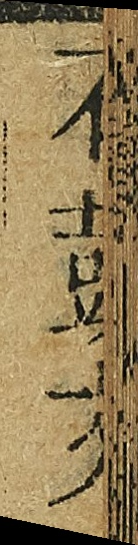石鼓文
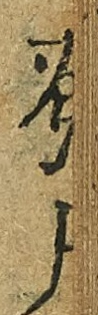發凡
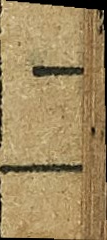二
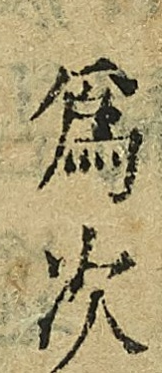爲次
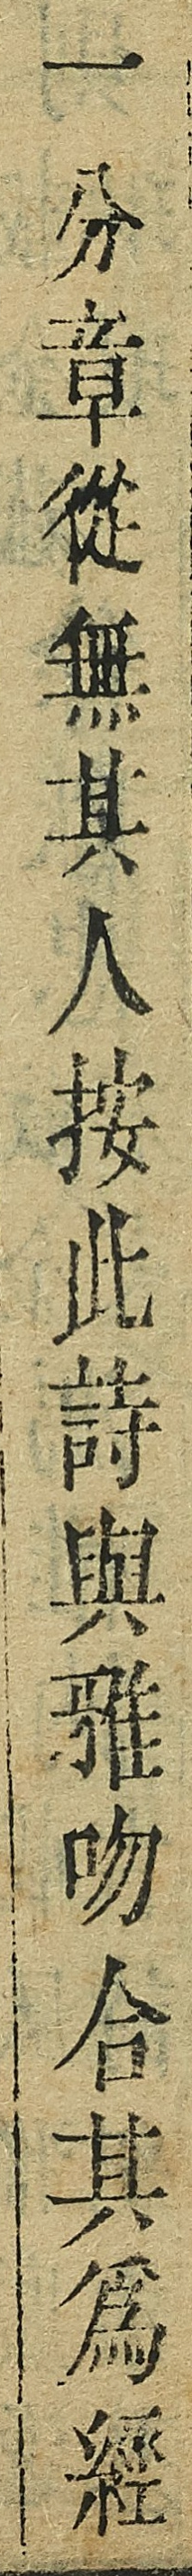一分章從無其人按此詩與雅吻合其爲經
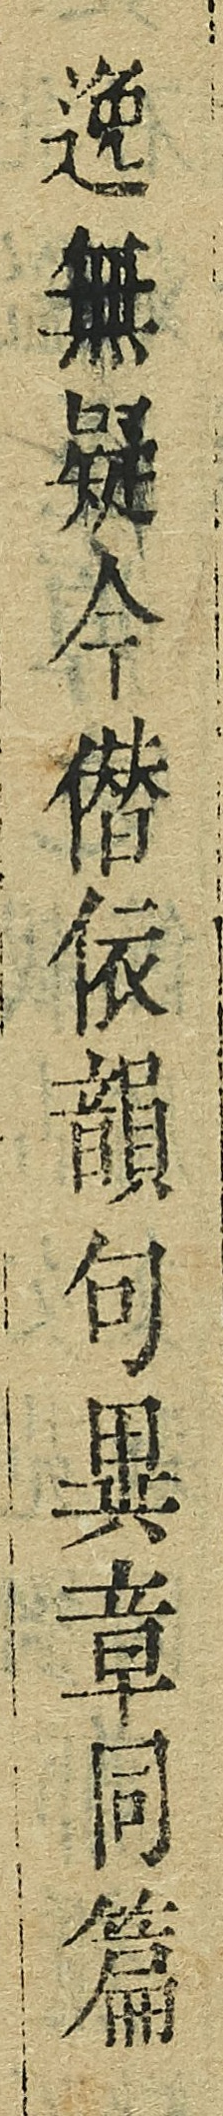逸無疑今僭依韻句異章同篇
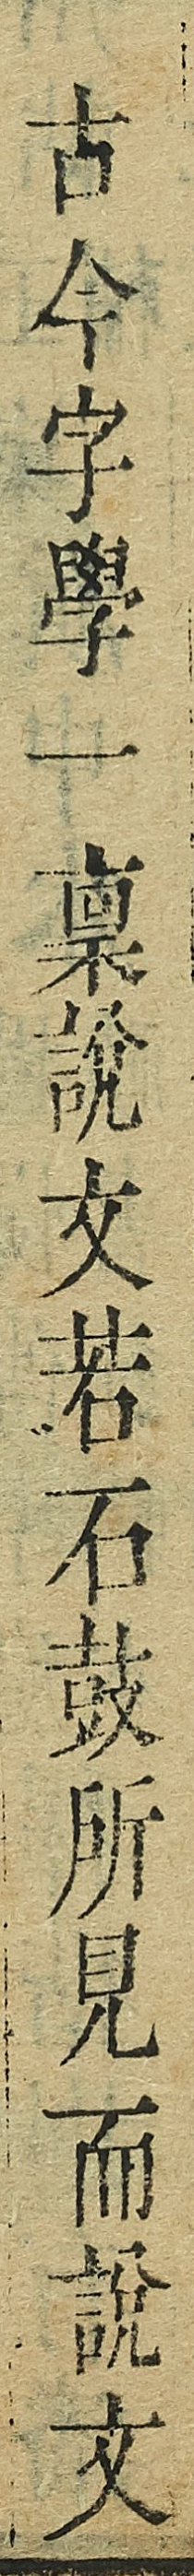古今字學一稟說文若石鼓所見而說文
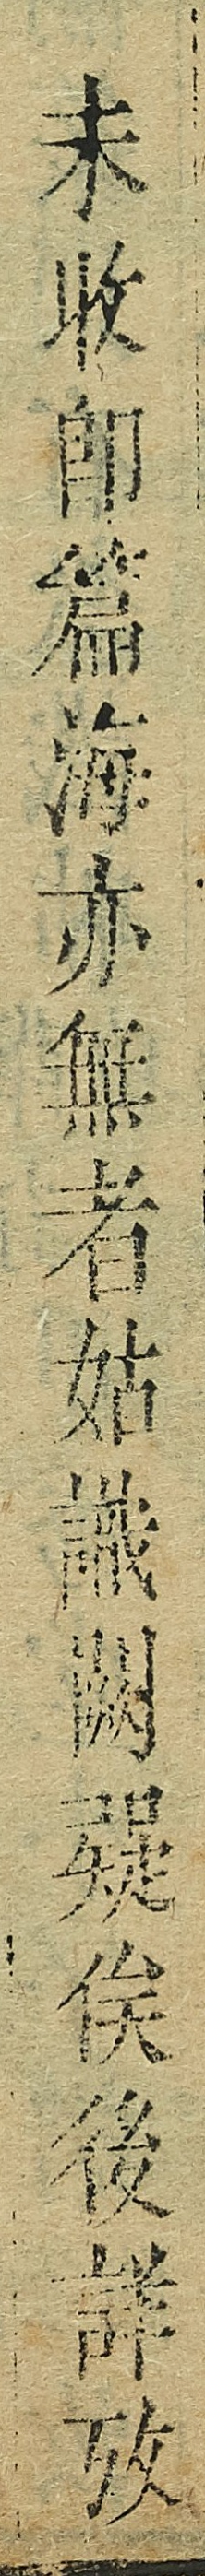未收即篇海亦無者姑識闕疑俟後譯攷
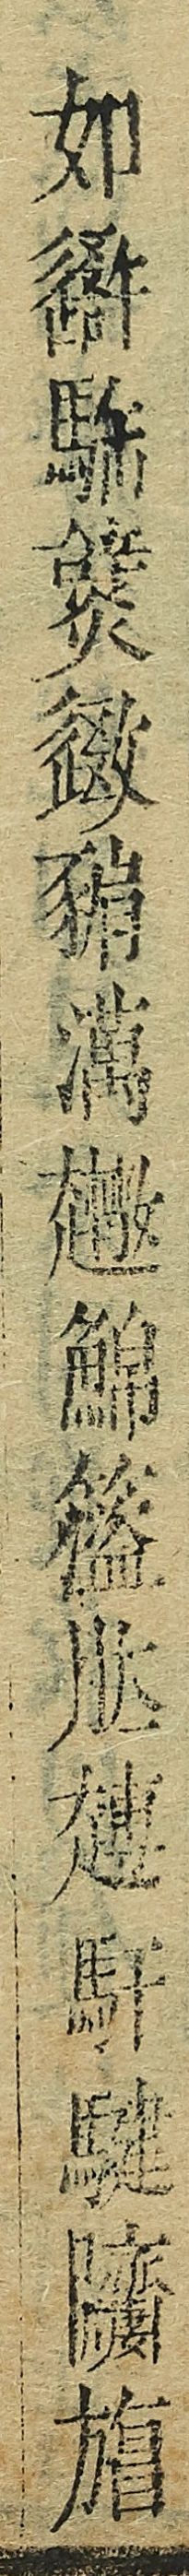如衙驕莢？鍁？澫遫？鮊籃肱沊？馯騝牖旃
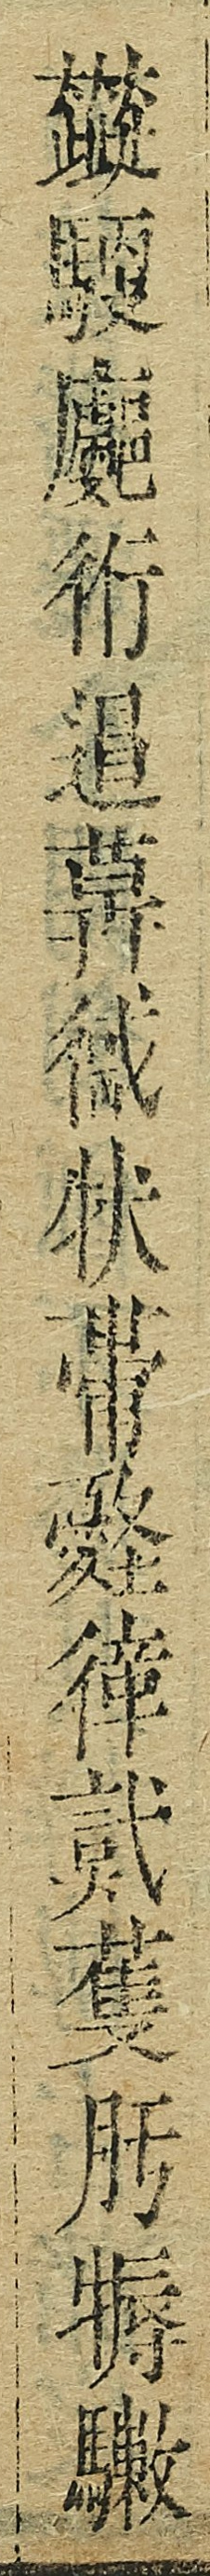鏇（馬更）廲衎遏薡钺狀帯（憂圣）徫貮蒦（月亐）（牛辱）轍？
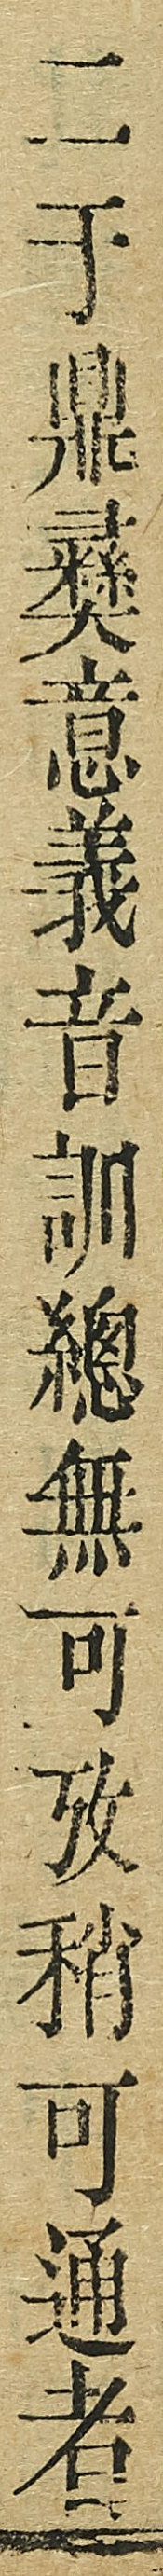二于鼎樊意義音訓總無可攷稍可通者
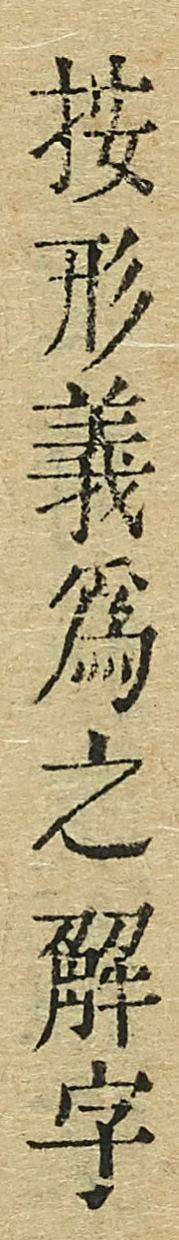按形義爲之解字
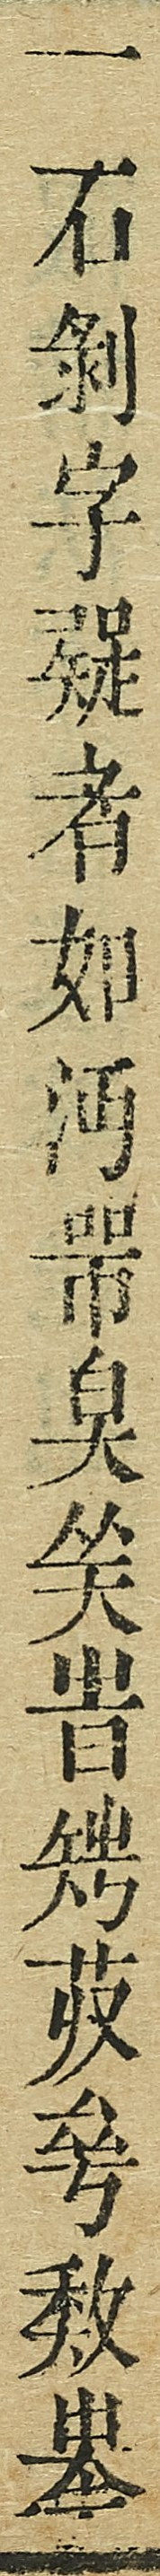一石剝字疑者如沔带？臭笑峕娉荍華敷皋
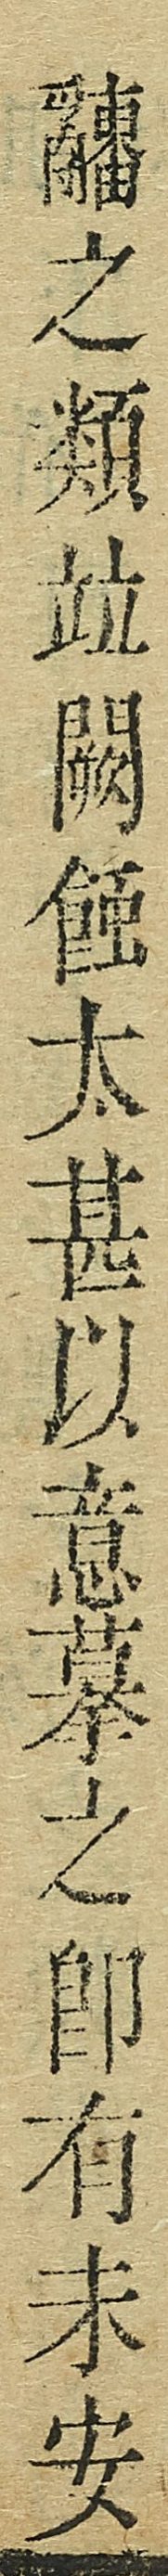蘊？之類竝闕蝕太甚以意摹之即有未安
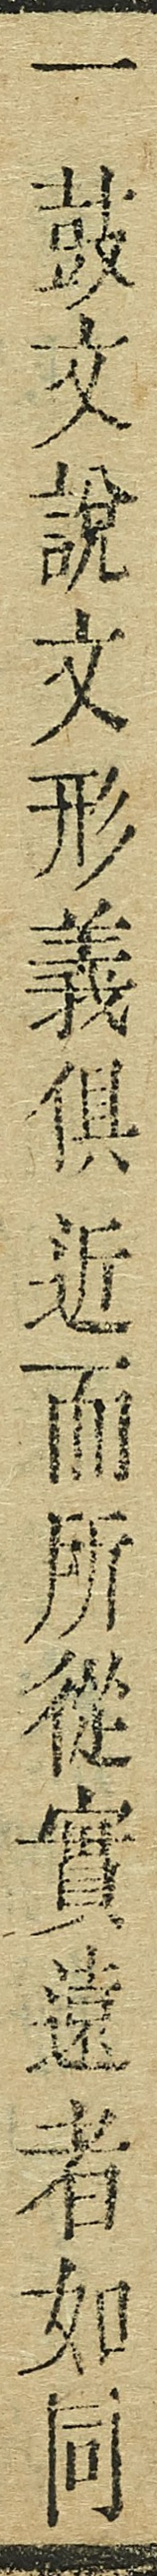一鼓文說文形意俱近而從實遠者如同
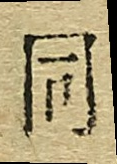同
